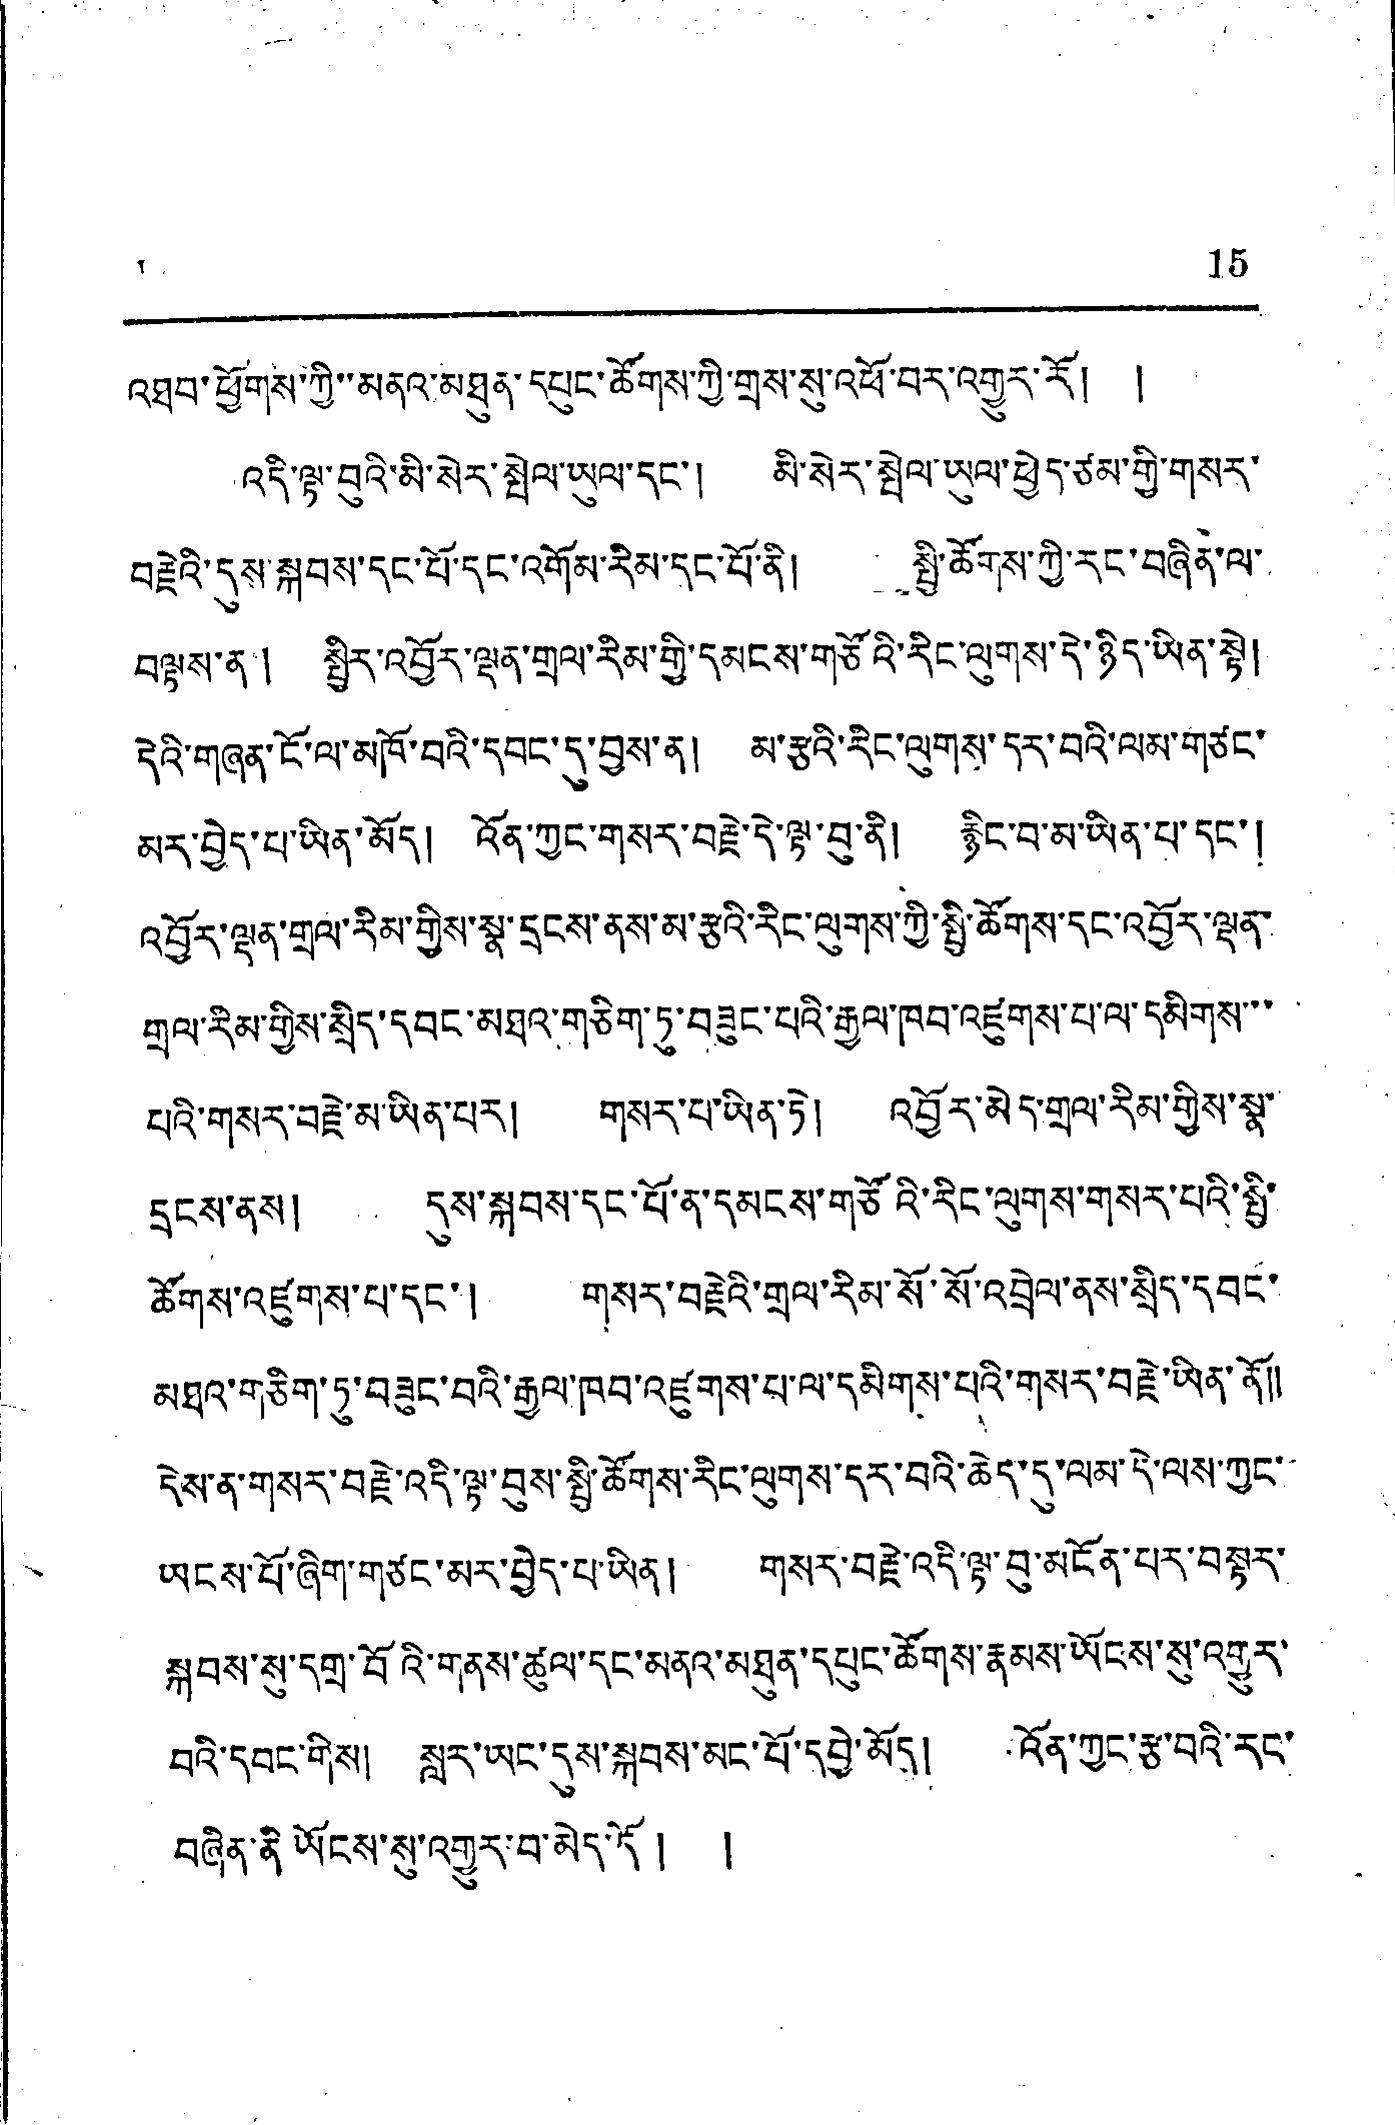15
འཐབ་ཕྱོགས་ཀྱི་མནའ་མཐུན་དཔུང་ཚོགས་ཀྱི་གྲས་སུ་འཕོ་བར་འགྱུར་རོ། །
འདི་ལྟ་བུའི་མི་སེར་སྤེལ་ཡུལ་དང་། མི་སེར་སྤེལ་ཡུལ་ཕྱེད་ཙམ་གྱི་གསར་
བརྗེའི་དུས་སྐབས་དང་པོ་དང་འགོམ་རིམ་དང་པོ་ནི། སྤྱི་ཚོགས་ཀྱི་རང་བཞིན་ལ་
བལྟས་ན། སྤྱིར་འབྱོར་ལྡན་གྲལ་རིམ་གྱི་དམངས་གཙོའི་རིང་ལུགས་དེ་ཉིས་ཡིན་སྟེ།
དེའི་གཞན་ངོ་ལ་མཁོ་བའི་དབང་དུ་བྱས་ན། མ་རྩའི་རིང་ལུགས་དར་བའི་ལམ་གཙང་
མར་བྱེད་པ་ཡིན་མོད། འོན་ཀྱང་གསར་བརྗེ་དེ་ལྟ་བུ་ནི། རྙིང་བ་མ་ཡིན་པ་དང་།
འབྱོར་ལྡ་ངརལ་རིམ་གྱིས་སྣ་དྲངས་ནས་མ་རྩའི་རིང་ལུགས་ཀྱི་སྤྱི་ཚོགས་དང་འབྱོར་ལྡན་
གྲལ་རིམ་གྱིས་སྲིད་དབང་མཐའ་གཅིག་ཏུ་བཟུང་པའི་རྒྱལ་ཁབ་འཛུགས་པ་ལ་དམིགས་་་
པའི་གསར་བརྗེ་མ་ཡིན་པར། གསར་པ་ཡིན་ཏེ། འབྱོར་མེད་གྲལ་རིམ་གྱིས་སྣ་
དྲངས་ནས། དུས་སྐབས་དང་པོ་ན་དམངས་གཙོའི་རིང་ལུགས་གསྲ་པའི་སྤྱི་
ཚོགས་འཛུགས་པ་དང་། གསར་བརྗེའི་གྲལ་རིམ་སོ་སོ་འབྲེལ་ནས་སྲིད་དབང་
མཐའ་གཅིག་ཏུ་བཟུང་བའི་རྒྱལ་ཁབ་འཛུགས་པ་ལ་དམིགས་པའི་གསར་བརྗེ་ཡིན་ནོ༎
དེས་ན་གསར་བརྗེ་འདི་ལྟ་བུས་སྤྱི་ཚོགས་རིང་ལུགས་དར་བའི་ཆེད་དུ་ལམ་དེ་ལས་ཀྱང་
ཡངས་པོ་ཞིག་གཙང་མར་བྱེད་པ་ཡིན། གསར་བརྗེ་འདི་ལྟ་བུ་མངོན་པར་བསྟར་
སྐབས་སུ་དགྲ་བོའི་གནས་ཚུལ་དང་མནའ་མཐུན་དཔུང་ཚོགས་རྣམས་ཡོངས་སུ་འགྱུར་
བའི་དབང་གིས། སླར་ཡང་དུས་སྐབས་མང་པོ་དབྱེ་མོད། འོན་ཀྱང་རྩ་བའི་རང་
བཞིན་ནི་ཡོངས་སུ་འགྱུར་བ་མེད་དོ ། །
